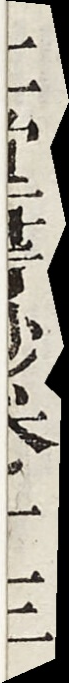北堂書鈔卷一三
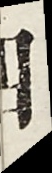四
